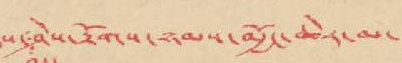ཤེས་རྟོགས་ཉམས་མྱོང་ཆེར་ལ་
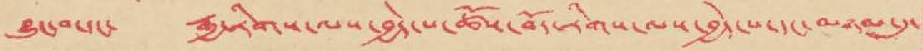བྱུང་བ་དང་ རྒྱ་རིགས་ལས་བྱེད་པ་ཚོས་བོད་རོགས་ལས་བྱེད་པ་དང་མཉམ་དུ་
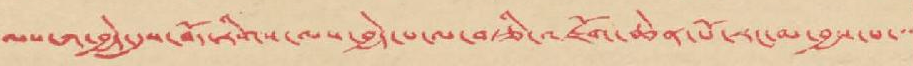ལས་ཀ་བྱེད་དུས་བོད་རིགས་ལས་བྱེད་པ་ལ་བཙི་འཇོག་ཆེན་པོ་རང་མ་བྱས་པ་་་
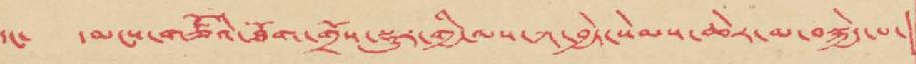དང་ དམངས་གཙོའི་ཐོག་གྲོས་སྡུར་གྱི་ལས་ཀ་བྱེད་སེམས་ཆེར་མ་བསྐྱེད་པ་
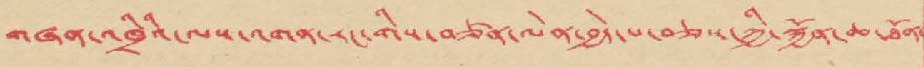གཞན་འཁྲིའི་ལས་འགན་རང་གིས་བཙན་ལེན་བྱེད་པ་བཅས་ཀྱི་སྐྱོན་ཆ་ཐོན་
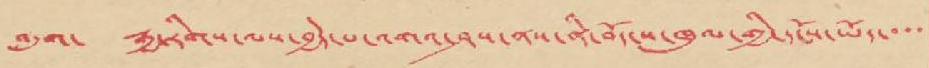འདུག་ རྒྱ་རིགས་ལས་བྱེད་པ་འགའ་ཤས་ནས་ནི་བོད་ས་ཁུལ་གྱི་དངོས་ཡོད་་་་
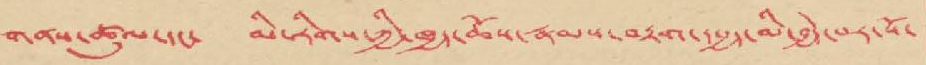གནས་ཚུལ་དང་ མི་རིགས་ཀྱི་ཁྱད་ཆོས་རྣམས་བརྟག་དཔྱད་མི་བྱེད་པར་སོ་
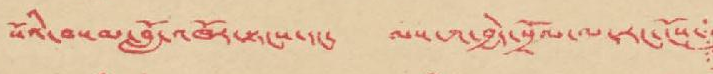སོའི་བསམ་བློ་འཁོར་སྟངས་དང་ ལས་ཀ་བྱེད་སྲོལ་ལ་རང་ངོས་
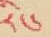རིང་
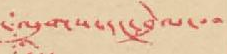ལུགས་དང་བྲེལ་་་
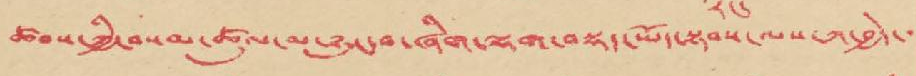ཚབས་ཀྱི་བསམ་ཚུལ་མ་ཉུང་བ་ཞིག་ལྷག་བསྡད་ཡོད་སྟབས་ལས་ཀ་བྱེད་
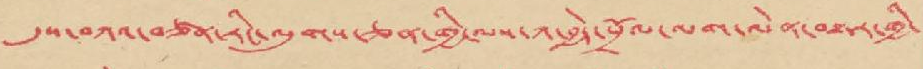དུས་བཀའ་བཙན་རིང་ལུགས་ཅན་གྱི་ལས་ཀ་བྱེད་སྲོལ་ལག་ལེན་བསྟན་གྱི་
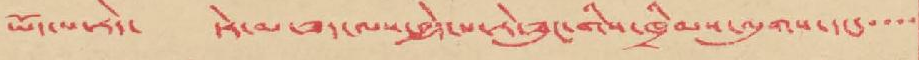ཡོད་པ་རེད་ དེར་མ་ཟད་ལས་བྱེད་པ་རེ་ཟུང་གིས་ཁྲིམས་ལུགས་དང་་་་
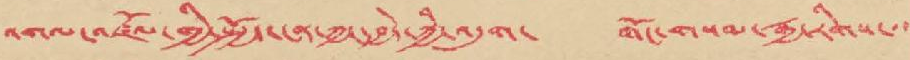འགལ་འཛོལ་གྱི་སྤྱོད་ངན་ཀྱང་བྱེད་ཀྱི་འདུག་ གོང་གསལ་རྒྱ་རིགས་་་
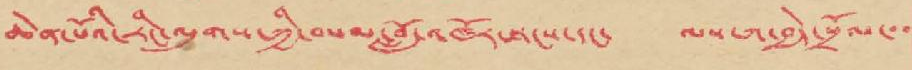ཆེན་པོའི་རིང་ལུགས་ཀྱི་བསམ་བློ་འཁོར་སྟངས་དང་ ལས་ཀ་བྱེད་སྲོལ་་་
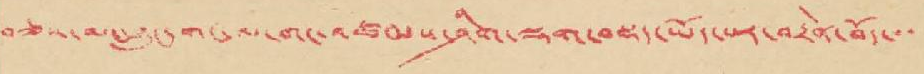བཅས་མང་ཉུང་གང་ལ་གང་འཚམས་ཤིག་ལྷག་བསྡད་ཡོད་པར་བརྟེན་བོད་་་
